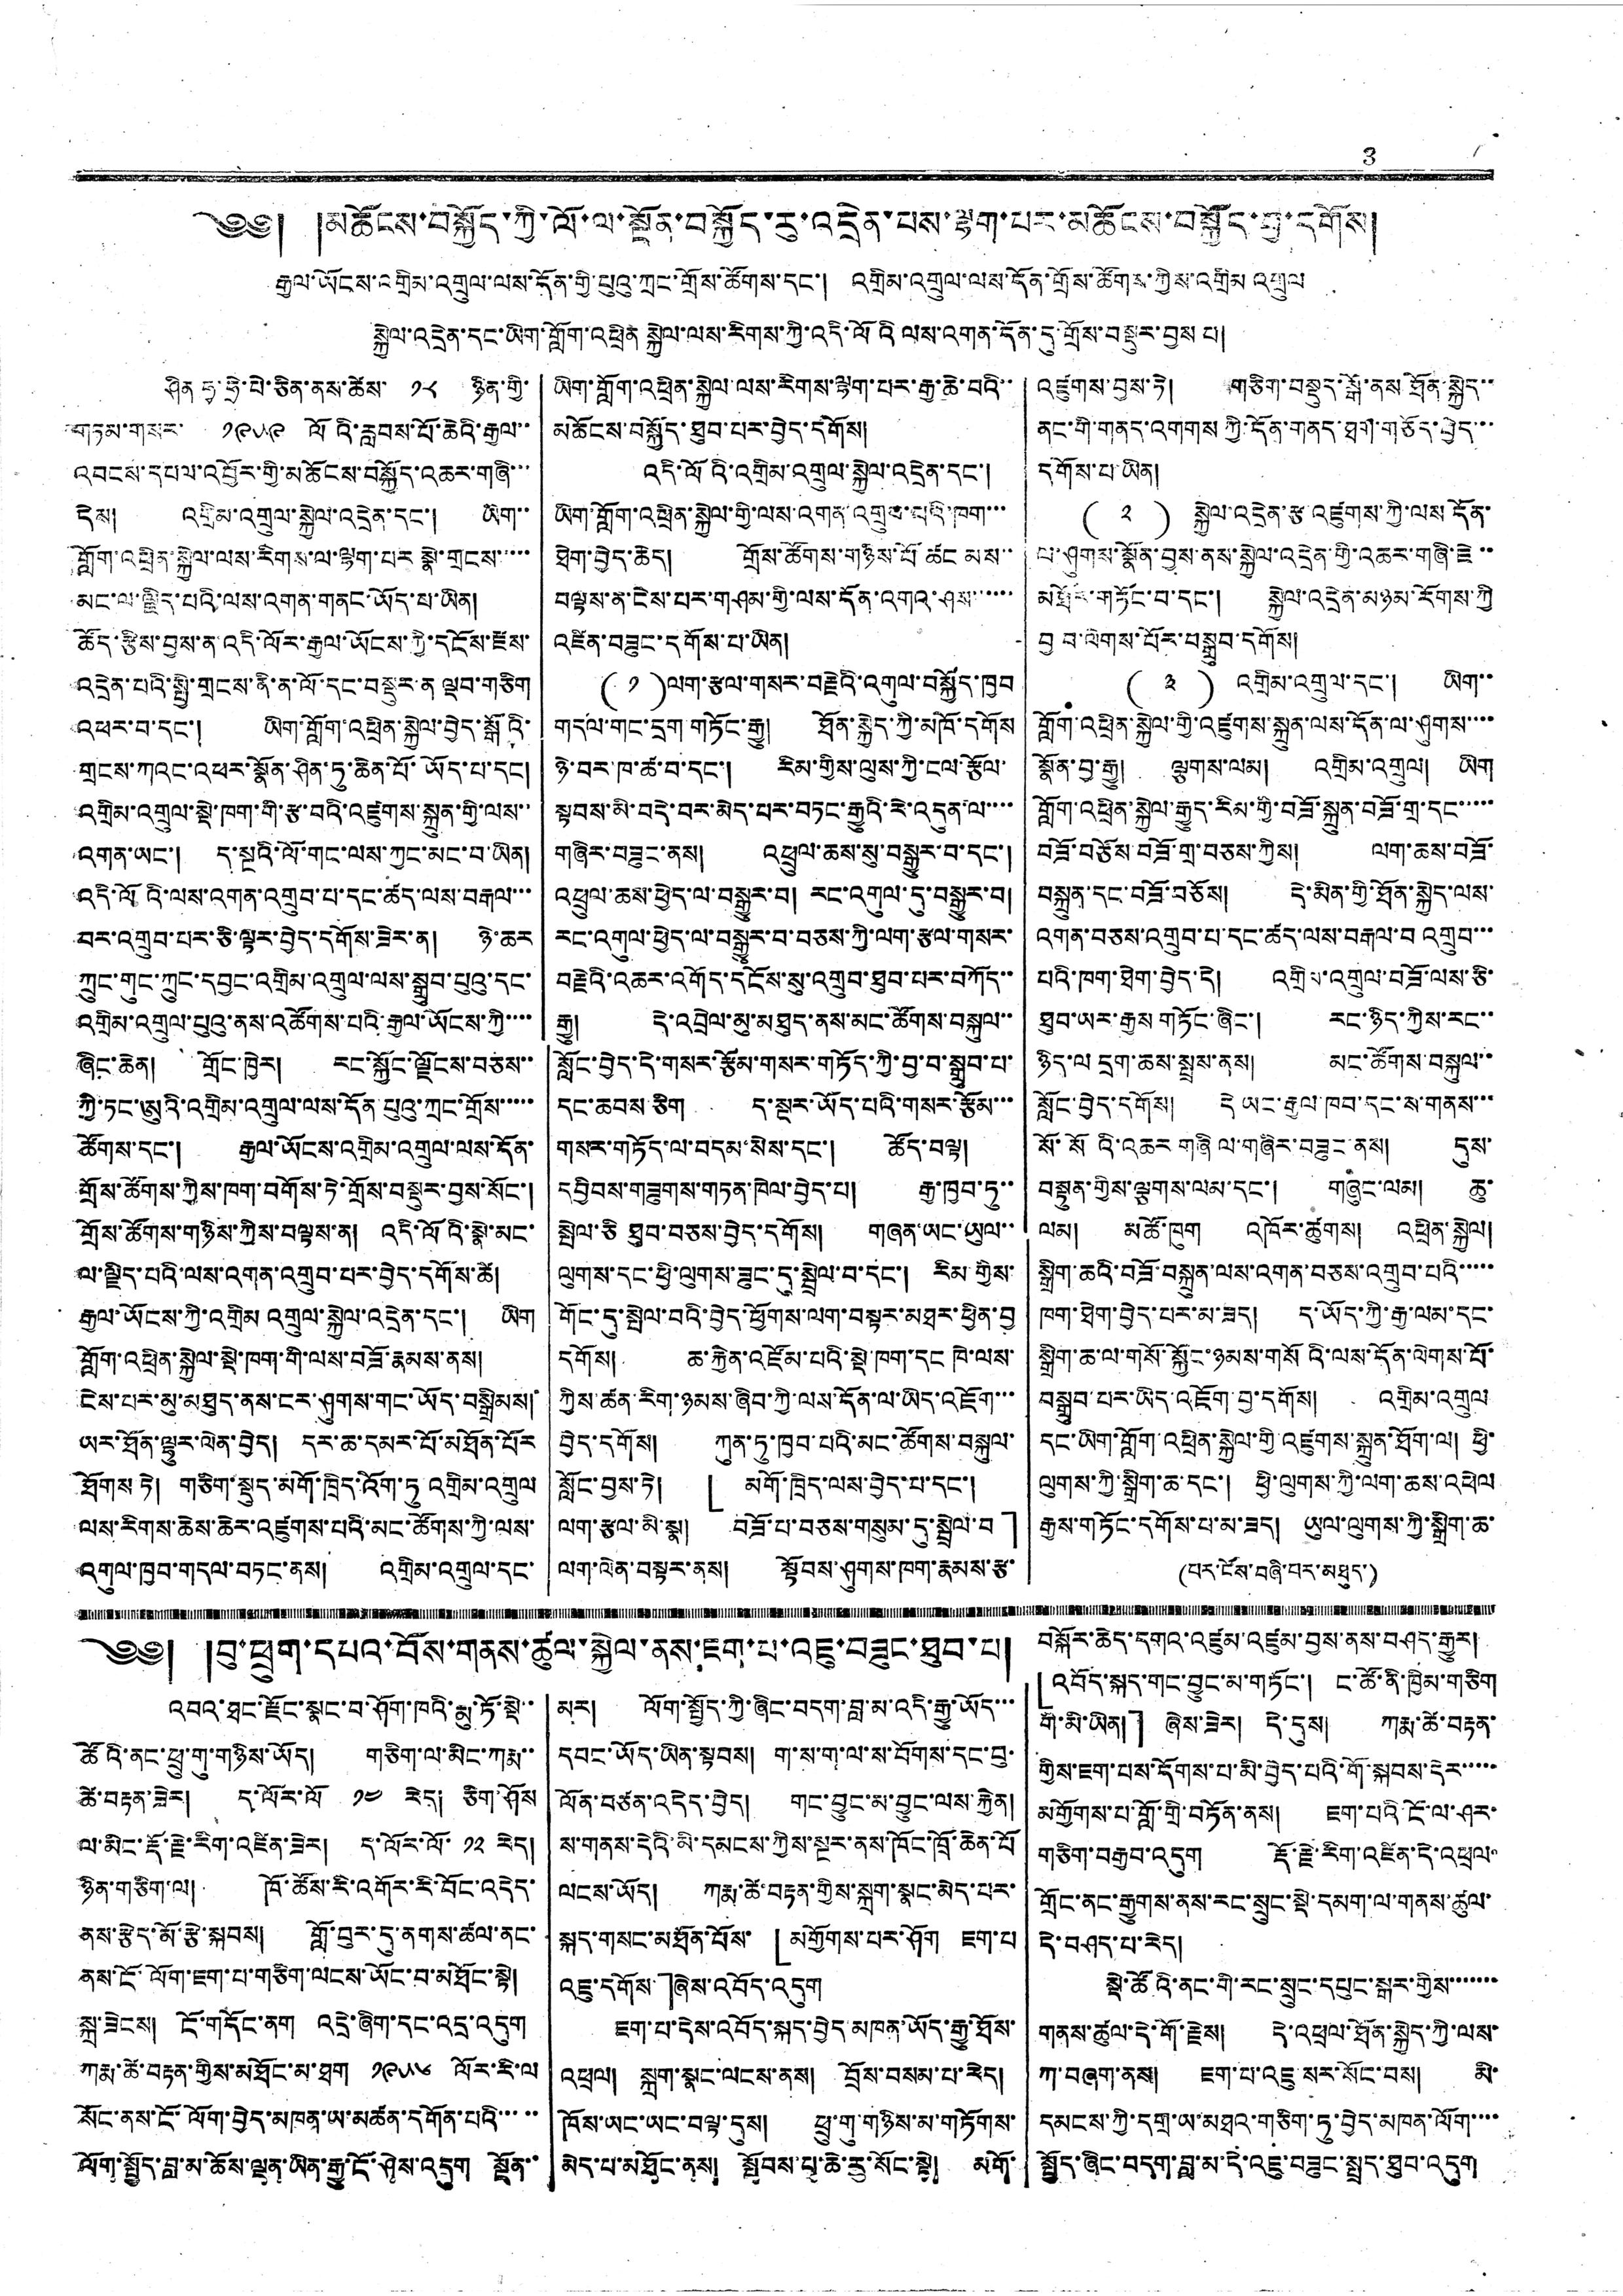3
༄༅། །མཆོངས་བསྐྱོད་ཀྱི་ལོ་ལ་སྔོན་བསྐྱོད་རུ་འདྲེན་པས་ལྷག་པར་མཆོངས་བསྐྱོད་བྱ་དགོས།
རྒྱལ་ཡོངས་འགྲིམ་འགྲུལ་ལས་དོན་གྱི་པུའུ་ཀྲང་གྲོས་ཚོགས་དང་། འགྲིམ་འགྲུལ་ལས་དོན་གྲོས་ཚོགས་ཀྱིས་འགྲིམ འགྲུལ
སྐྱེལ་འདྲེན་དང་ཡིག་གློག་འཕྲིན སྐྱེལ་ལས་རིགས་ཀྱི་འདི་ལོའི ལས་འགན་དོན་དུ་གྲོས་བསྡུར་བྱས པ།
ཤིན ཧྭ་ཧྲེ་པེ་ཅིན་ནས་ཚེས་ ༡༨ ཉིན་གྱི་
གཏམ་གསར་ ༡༩༥༩ ལོའི་རླབས་པོ་ཆེའི་རྒྱལ་་
འབངས་དཔལ་འབྱོར་གྱི་མཆོངས་བསྐྱོད་འཆར་གཞི་་་
དེས། འགྲིམ་འགྲུལ་སྐྱེལ་འདྲེན་དང་། ཡིག་་
གློག་འཕྲིན་སྐྱེལ་ལས་རིགས་ལ་ལྷག་པར སྣེ་གྲངས་་་་་
མང་ལ་ལྗིད་པའི་ལས་འགན་གནང་ཡོད་པ་ཡིན།
ཚོད་རྩིས་བྱས་ན་འདི་ལོར་རྒྱལ་ཡོངས་ཀྱི་དངོས་རྫས་
འདྲེན་པའི་སྤྱི་གྲངས་ནི་ན་ལོ་དང་བསྡུར་ན ལྡབ་གཅིག
འཕར་བ་དང་། ཡིག་གློག་འཕྲིན་སྐྱེལ་བྱེད་སྒོའི་
གྲངས་ཀའང་འཕར་སྣོན་ཤིན་ཏུ་ཆེན་པོ་ཡོད་པ་དང །
འགྲིམ་འགྲུལ་སྡེ་ཁག་གི་རྩ་བའི་འཛུགས་སྐྲུན་གྱི་ལས་་
འགན་ཡང་། ད་སྔའི་ལོ་གང་ལས་ཀྱང་མང་བ་ཡིན།
འདི་ལོའི་ལས་འགན་འགྲུབ་པ་དང་ཚད་ལས་བརྒལ་་་
བར་འགྲུབ་པར་ཅི་ལྟར་བྱེད་དགོས་ཟེར་ན། ཉེ་ཆར
ཀྲུང་གུང་ཀྲུང་དབྱང་འགྲིམ་འགྲུལ་ལས་སྒྲུབ་པུའུ་དང་
འགྲིམ་འགྲུལ་པུའུ་ནས་འཚོགས་པའི་རྒྱལ་ཡོངས་ཀྱི་་་་
ཞིང་ཆེན། གྲོང་ཁྱེར། རང་སྐྱོང་ལྗོངས་བཅས་་
ཀྱི་ཏང་ཨུའི་འགྲིམ་འགྲུལ་ལས་དོན་པུའུ་ཀྲང་གྲོས་་་་་
ཚོགས་དང་། རྒྱལ་ཡོངས་འགྲིམ་འགྲུལ་ལས་དོན་
གྲོས་ཚོགས་ཀྱིས་ཁག་བགོས་ཏེ་གྲོས་བསྡུར་བྱས་སོང་།
གྲོས་ཚོགས་གཉིས་ཀྱིས་བལྟས་ན། འདི་ལོའི་སྣེ་མང་
ལ་ལྗིད་པའི་ལས་འགན་འགྲུབ་པར་བྱེད་དགོས་ཚེ།
རྒྱལ་ཡོངས་ཀྱི་འགྲིམ འགྲུལ་སྐྱེལ་འདྲེན་དང་། ཡིག
གློག་འཕྲིན་སྐྱེལ་སྡེ་ཁག་གི་ལས་བཟོ་རྣམས་ནས།
ངེས་པར་མུ་མཐུད་ནས་ངར་ཤུགས་གང་ཡོད་བསྒྲིམས།
ཡར་ཐོན་ལྷུར་ལེན་བྱེད། དར་ཆ་དམར་པོ་མཐོན་པོར
ཐོགས ཏེ། གཅིག་སྡུད་མགོ་ཁྲིད་འོག་ཏུ་འགྲིམ་འགྲུལ
ལས་རིགས་ཆེས་ཆེར་འཛུགས་པའི་མང་ཚོགས་ཀྱི་ལས་
འགུལ་ཁྱབ་གདལ་བཏང་ནས། འགྲིམ་འགྲུལ་དང་
ཡིག་གློག་འཕྲིན་སྐྱེལ་ལས་རིགས་ལྷག་པར་རྒྱ་ཆེ་བའི་་
མཆོངས་བསྐྱོད་ཐུབ་པར་བྱེད་དགོས།
འདི་ལོའི་འགྲིམ་འགྲུལ་སྐྱེལ་འདྲེན་དང་།
ཡིག་གློག་འཕྲིན་སྐྱེལ་གྱི་ལས་འགན་འགྲུབ་པའི་ཁག་་་
ཐེག་བྱེད་ཆེད། གྲོས་ཚོགས་གཉིས་པོ ཚང མས་་
བལྟས་ན་ངེས་པར་གཤམ་གྱི་ལས་དོན་འགའ་ཤས་་་་་་
འཛིན་བཟུང་དགོས་པ་ཡིན།
( ༡ ) ལག་རྩལ་གསར་བརྗེའི་འགུལ་བསྐྱོད་ཁྱབ
གདལ་གང་དྲག གཏོང་རྒྱུ། ཐོན་སྐྱེད་ཀྱི་མཁོ་དགོས
ཉེ་བར་ཁ་ཚ་བ་དང་། རིམ་གྱིས་ལུས་ཀྱི་ངལ་རྩོལ་
སྟབས་མི་བདེ་བར་མེད་པར་བཏང་རྒྱུའི་རེ་འདུན་ལ་་་་
གཞིར་བཟུང་ནས། འཕྲུལ་ཆས་སུ་བསྒྱུར་བ་དང་།
འཕྲུལ་ཆས་ཕྱེད་ལ་བསྒྱུར་བ། རང་འགུལ་དུ་བསྒྱུར་བ།
རང་འགུལ་ཕྱེད་ལ་བསྒྱུར་བ་བཅས་ཀྱི་ལག་རྩལ་གསར་
བརྗེའི་འཆར་འགོད་དངོས་སུ་འགྲུབ་ཐུབ་པར་བཀོད་་
རྒྱུ། དེ་འབྲེལ་མུ་མཐུད་ནས་མང་ཚོགས་བསྐུལ་་
སློང་བྱེད་དེ་གསར་རྩོམ་གསར་གཏོད་ཀྱི་བྱ་བ་སྒྲུབ་པ་
དང་ཆབས་ཅིག ད་སྔར་ཡོད་པའི་གསར་རྩོམ་་་
གསར་གཏོད་ལ་བདམ་སེས་དང་། ཚོད་བལྟ།
དབྱིབས་གཟུགས་གཏན་ཁེལ་བྱེད་པ། རྒྱ་ཁྱབ་ཏུ་་
སྤེལ་ཅི ཐུབ་བཅས་བྱེད་དགོས། གཞན་ཡང་ཡུལ་་
ལུགས་དང་ཕྱི་ལུགས་ཟུང་དུ་སྦྲེལ་བ་དང་། རིམ གྱིས་
གོང་དུ་སྤེལ་བའི་བྱེད་ཕྱོགས་ལག་བསྟར་མཐར་ཕྱིན་བྱ
དགོས། ཆ་རྐྱེན་འཛོམ་པའི་སྡེ་ཁག་དང ཁེ་ལས་
ཀྱིས་ཚན་རིག་ཉམས་ཞིབ་ཀྱི་ལས་དོན་ལ་ཡིད་འཇོག་་་
བྱེད་དགོས། ཀུན་ཏུ་ཁྱབ་པའི་མང་ཚོགས་བསྐུལ་
སློང་བྱས་ཏེ། 「མགོ་ཁྲིད་ལས་བྱེད་པ་དང་།
ལག་རྩལ་མི་སྣ། བཟོ་པ་བཅས་གསུམ་དུ་སྦྲེལ་བ 」
ལག་ལེན་བསྟར་ནས། སྟོབས་ཤུགས་ཁག་རྣམས་རྩ་
འཛུགས་བྱས་ཏེ། གཅིག་བསྡུད་སྒོ་ནས ཐོན་སྐྱེད་་
ནང་གི་གནད་འགགས ཀྱི་དོན་གནད་ཐག་གཅོད་བྱེད་་་
དགོས་པ་ཡིན།
( ༢ ) སྐྱེལ་འདྲེན་རྩ་འཛུགས་ཀྱི་ལས དོན་
ལ་ཤུགས་སྣོན་བྱས་ནས་སྐྱེལ་འདྲེན་གྱི་འཆར་གཞི་ཇེ་་
མཐོར་གཏོང་བ་དང་། སྐྱེལ་འདྲེན་མཉམ་རོགས་ཀྱི
བྱ བ་ལེགས་པོར་བསྒྲུབ་དགོས།
( ༣ ) འགྲིམ་འགྲུལ་དང་། ཡིག་་
གློག་འཕྲིན་སྐྱེལ་གྱི་འཛུགས་སྐྲུན་ལས་དོན་ལ་ཤུགས་་་་
སྣོན་བྱ་རྒྱུ། ལྕགས་ལམ། འགྲིམ་འགྲུལ། ཡིག
གློག་འཕྲིན་སྐྱེལ་རྒྱུད་རིམ་གྱི་བཟོ་སྐྲུན་བཟོ་གྲ་དང་་་་་
བཟོ་བཅོས བཟོ་གྲ་བཅས་ཀྱིས། ལག་ཆས་བཟོ་
བསྐྲུན་དང་བཟོ་བཅོས། དེ་མིན་གྱི་ཐོན་སྐྱེད་ལས་
འགན་བཅས་འགྲུབ་པ་དང་ཚད་ལས་བརྒལ་བ འགྲུབ་་་
པའི་ཁག་ཐེག་བྱེད་དེ། འགྲིམ་འགྲུལ་བཟོ་ལས་ཅི་
ཐུབ་ཡར་རྒྱས གཏོང་ཞིང་། རང་ཉིད་ཀྱིས་རང་་
ཉིད་ལ དྲག་ཆས་སྤྲས་ནས། མང་ཚོགས་བསྐུལ་་
སློང་བྱེད་དགོས། དེ ཡང་རྒྱལ་ཁབ་དང་ས་གནས་་་
སོ་སོའི་འཆར གཞི ལ་གཞིར་བཟུང་ནས། དུས་
བསྟུན་གྱིས་ལྕགས་ལམ་དང་། གཞུང་ལམ། ཆུ་
ལམ། མཚོ་ཁུག འཁོར་ཚུགས། འཕྲིན་སྐྱེལ།
སྒྲིག་ཆའི་བཟོ་བསྐྲུན་ལས་འགན་བཅས་འགྲུབ་པའི་་་་་
ཁག་ཐེག་བྱེད་པར་མ་ཟད། ད་ཡོད་ཀྱི་རྒྱ་ལམ་དང་
སྒྲིག་ཆ་ལ་གསོ་སྐྱོང་ཉམས་གསོའི་ལས་དོན་ལེགས་པོ་
བསྒྲུབ་པར་ཡིད་འཇོག་བྱ་དགོས། འགྲིམ་འགྲུལ
དང་ཡིག་གློག་འཕྲིན་སྐྱེལ་གྱི་འཛུགས་སྐྲུན་ཐོག་ལ། ཕྱི་
ལུགས་ཀྱི་སྒྲིག་ཆ་དང་། སྤྱི་ལུགས་ཀྱི་ལག་ཆས་འཕེལ
རྒྱས་གཏོང་དགོས་པ་མ་ཟད། ཡུལ་ལུགས་ཀྱི་སྒྲིག་ཆ་
(པར་ངོས་བཞི་པར་མཐུད་)
༄༅། །བུ་ཕྲུག་དཔའ་བོས་གནས་ཚུལ་སྐྱེལ་ནས་ཇག་པ་འཇུ་བཟུང་ཐུབ་པ།
འབའ་ཐང་རྫོང་སྣང་བ་ཤོག་ཁའི་མུ་ཏོ་སྡེ་་
ཚོའི་ནང་ཕྲུ་གུ་གཉིས་ཡོད། གཅིག་ལ་མིང་ཀརྨ་་
ཚེ་བརྟན་ཟེར། ད་ལོར་ལོ ༡༤ རེད། ཅིག་ཤོས
ལ་མིང་རྡོ་རྗེ་རིག་འཛིན་ཟེར། ད་ལོར་ལོ་ ༡༢ རེད།
ཉིན་གཅིག་ལ། ཁོ་ཚོས་རི་འགོར་རི་བོང་འདེད་
ནས་རྩེད་མོ་རྩེ་སྐབས། གློ་བུར་དུ་ནགས་ཚལ་ནང་
ནས་ངོ་ལོག་ཇག་པ་གཅིག་ལངས་ཡོང་བ་མཐོང་སྟེ།
སྐྲ་ཟེངས། ངོ་གདོང་ནག འདྲེ་ཞིག་དང་འདྲ་འདུག
ཀརྨ་ཚེ་བརྟན་གྱིས་མཐོང་མ་ཐག ༡༩༥༦ ལོར་རི་ལ
སོང་ནས་ངོ་ལོག་བྱེད་མཁན་ཡ་མཚན་དགོན་པའི་་་་་
ལོག་སྤྱོད་བླ་མ་ཆོས་ལྡན་ཡིན་རྒྱུ་ངོ་ཤེས་འདུག སྔོན་་
མར། ལོག་སྤྱོད་ཀྱི་ཞིང་བདག་བླ་མ་འདི་རྒྱུ་ཡོད་་་
དབང་ཡོད་ཡིན་སྟབས། ག་ས་ག་ལ་ས་བོགས་དང་བུ་
ལོན་བཙན་འདེད་བྱེད། གང་བྱུང་མ་བྱུང་ལས་རྐྱེན།
ས་གནས་དེའི་མི་དམངས་ཀྱིས་སྔར་ནས་ཁོང་ཁྲོ་ཆེན་པོ
ལངས་ཡོད། ཀརྨ་ཚེ་བརྟན་གྱིས་སྐྲག་སྣང་མེད་པར་
སྐད་གསང་མཐོན་པོས་ 「མགྱོགས་པར་ཤོག ཇག་པ
འཇུ་དགོས་」ཞེས་འབོད་འདུག
ཇག་པ་དེས་འབོད་སྐད་བྱེད་མཁན་ཡོད་རྒྱུ་ཐོས་
འཕྲལ། སྐྲག་སྣང་ལངས་ནས། བྲོས་བསམ་པ་རེད།
ཁོས་ཡང་ཡང་བལྟ་དུས། ཕྲུ་གུ་གཉིས་མ་གཏོགས་
མེད་པ་མཐོང་ནས། སྤོབས་པ་ཆེ་རུ་སོང་སྟེ། མགོ་
བསྐོར་ཆེད་དགའ་འཛུམ་འཛུམ་བྱས་ནས་བཤད་རྒྱུར།
「འབོད་སྐད་གང་བྱུང་མ་གཏོང་། ང་ཚོ་ནི་ཁྱིམ་གཅིག
གི་མི་ཡིན།」 ཞེས་ཟེར། དེ་དུས། ཀརྨ་ཚེ་བརྟན་
གྱིས་ཇག་པས་དོགས་པ་མི་བྱེད་པའི་གོ་སྐབས་དེར་་་་་
མགྱོགས་པ་གློ་གྲི་བཏོན་ནས། ཇག་པའི་ངོ་ལ་ཤར་
གཅིག་བརྒྱབ་འདུག རྡོ་རྗེ་རིག་འཛིན་དེ་འཕྲལ་
གྲོང་ནང་རྒྱུགས་ནས་རང་སྲུང་སྡེ་དམག་ལ་གནས་ཚུལ་
དེ་བཤད་པ་རེད།
སྡེ་ཚོའི་ནང་གི་རང་སྲུང་དཔུང་སྒར་གྱིས་་་་་་་
གནས་ཚུལ་དེ་གོ་རྗེས། དེ་འཕྲལ་ཐོན་སྐྱེད་ཀྱི་ལས་
ཀ་བཞག་ནས། ཇག་པ་འཇུ་སར་སོང་བས། མི་
དམངས་ཀྱི་དགྲ་ཡ་མཐའ་གཅིག་ཏུ་བྱེད་མཁན་ལོག་་་་
སྤྱོད་ཞིང་བདག་བླ་མ་དེ་འཇུ་བཟུང་སྤྲད་ཐུབ་འདུག
